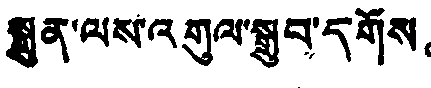སྐྲུན་ལས་འགུལ་སྒྲུབ་དགོས。
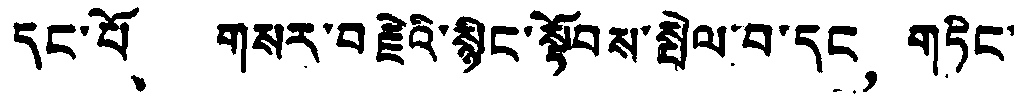དང་པོ、 གསར་བརྗེའི་སྙིང་སྟོབས་སྤེལ་བ་དང གཏིང་
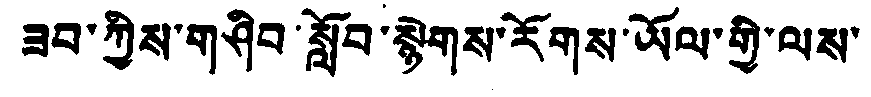ཟབ་ཀྱིས་གཤིབ་སློབ་སྙེགས་རོགས་ཡོལ་གྱི་ལས་
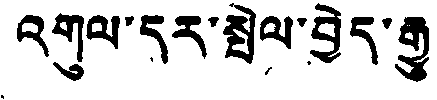འགུལ་དར་སྤེལ་བྱེད་རྒྱུ
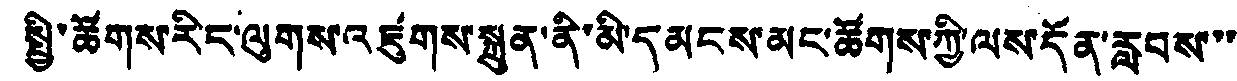སྤྱི་ཚོགས་རིང་ལུགས་འཛུགས་སྐྲུན་ནི་མི་དམངས་མང་ཚོགས་ཀྱི་ལས་དོན་རླབས་་་
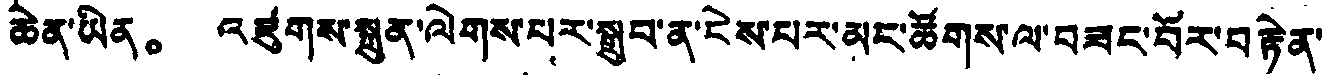ཆེན་ཡིན。 འཛུགས་སྐྲུན་ལེགས་པར་སྒྲུབ་ན་ངེས་པར་མང་ཚོགས་ལ་བཟང་པོར་བརྟེན་
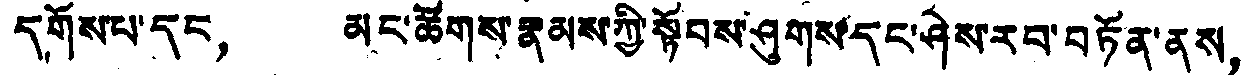དགོས་པ་དང， མང་ཚོགས་རྣམས་ཀྱི་སྟོབས་ཤུགས་དང་ཤེས་རབ་བཏོན་ནས，
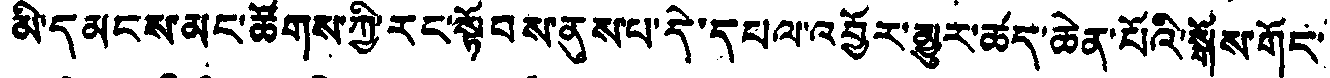མི་དམངས་མང་ཚོགས་ཀྱི་རང་སྟོབས་ནུས་པ་དེ་དཔལ་འབྱོར་མྱུར་ཚད་ཆེན་པོའི་སྒོས་གོང་་
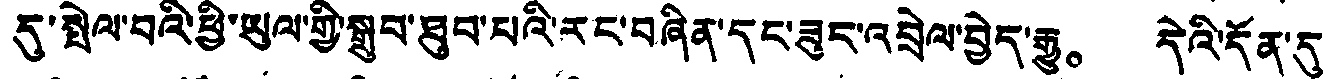དུ་སྤེལ་བའི་ཕྱི་ཡུལ་གྱི་སྒྲུབ་ཐུབ་པའི་རང་བཞིན་དང་ཟུང་འབྲེལ་བྱེད་རྒྱུ。 དེའི་དོན་དུ
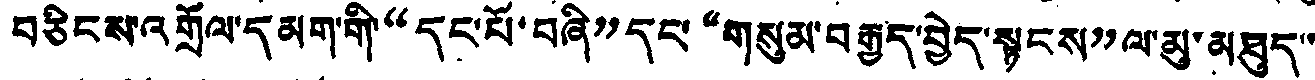བཅིངས་འགྲོལ་དམག་གི་“དང་པོ་བཞི”དང་“གསུམ་བརྒྱུད་བྱེད་སྟངས”ལ་མུ་མཐུད་་
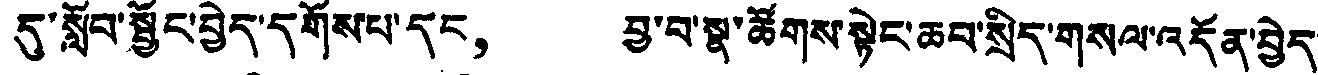དུ་སློབ་སྦྱོང་བྱེད་དགོས་པ་དང， བྱ་བ་སྣ་ཚོགས་སྟེང་ཆབ་སྲིད་གསལ་འདོན་བྱེད་
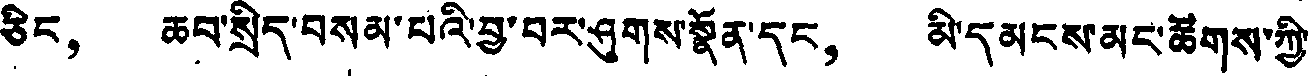ཅིང， ཆབ་སྲིད་བསམ་པའི་བྱ་བར་ཤུགས་སྣོན་དང， མི་དམངས་མང་ཚོགས་ཀྱི་
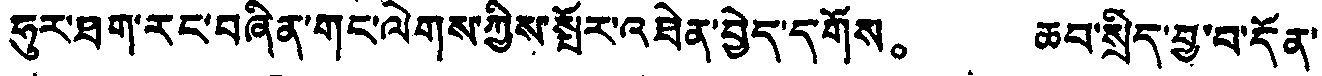ཧུར་ཐག་རང་བཞིན་གང་ལེགས་ཀྱིས་སྤོར་འཐེན་བྱེད་དགོས。 ཆབ་སྲིད་བྱ་བ་དོན་
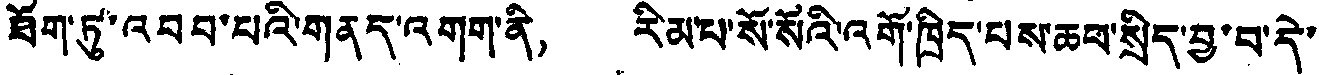ཐོག་ཏུ་འབབ་པའི་གནད་འགག་ནི， རིམ་པ་སོ་སོའི་འགོ་ཁྲིད་པས་ཆབ་སྲིད་བྱ་བ་དེ་
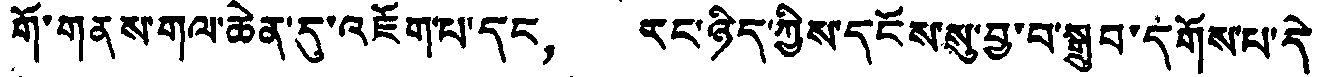གོ་གནས་གལ་ཆེན་དུ་འཇོག་པ་དང， རང་ཉིད་ཀྱིས་དངོས་སུ་བྱ་བ་སྒྲུབ་དགོས་པ་དེ
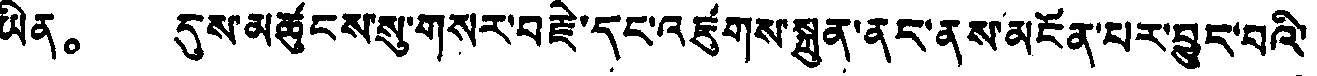ཡིན。 དུས་མཚུངས་སུ་གསར་བརྗེ་དང་འཛུགས་སྐྲུན་ནང་ནས་མངོན་པར་བྱུང་བའི་
